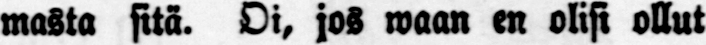masta sitä. Oi, jos waan en olisi ollut
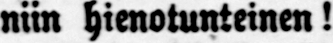niin hienotunteinen!
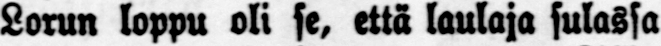Lorun loppu oli se, että laulaja sulassa
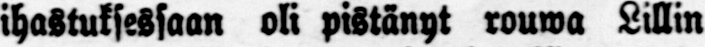ihastuksessaan oli pistänyt rouwa Lillin
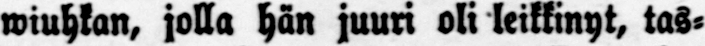wiuhkan, jolla hän juuri oli leikkinyt, tas-
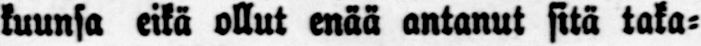kuunsa eikä ollut enää antanut sitä taka-
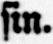sin.
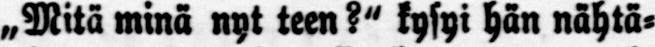„Mitä minä nyt teen?" kysyi hän nähtä-
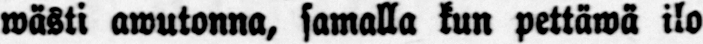wästi awutonna, samalla kun pettäwä ilo
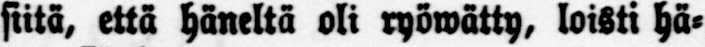siitä, että häneltä oli ryöwätty, loisti hä-
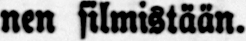nen silmistään.
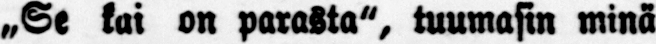„Se kai on parasta", tuumasin minä
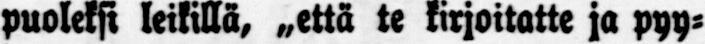puoleksi leikillä, „että te kirjoitatte ja pyy-
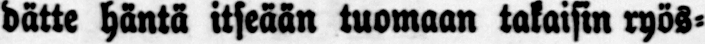dätte häntä itseään tuomaan takaisin ryös-
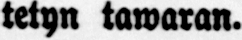tetyn tawaran.
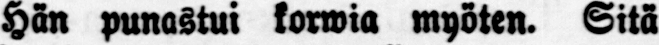Hän punastui korwia myöten. Sitä
